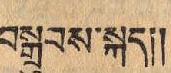བསྒྲུབས་སྐད།།
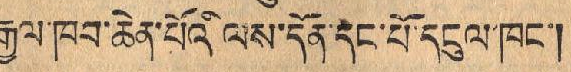རྒྱལ་ཁབ་ཆེན་པོའི་ལས་དོན་དང་པོ་དངུལ་ཁང་།
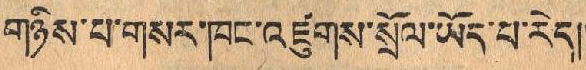གཉིས་པ་གསར་ཁང་འཛུགས་སྲོལ་ཡོད་པ་རེད།།
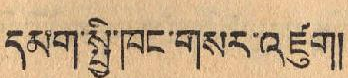དམག་སྤྱི་ཁང་གསར་འཛུག།
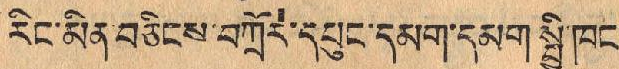རིང་མིན་བཅིངས་བཀྲོལ་དཔུང་དམག་དམག སྤྱི་ཁང་
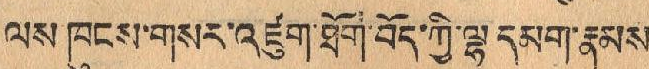ལས ཁུངས་གསར་འཛུག་ཐོག་བོད་ཀྱི་ལྷ་དམག་རྣམས་
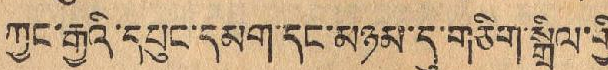ཀྱང་རྒྱའི་དཔུང་དམག་དང་མཉམ་དུ་གཅིག་སྒྲིལ་གྱི་
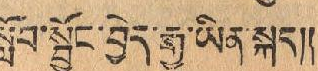སློབ་སྦྱོང་བྱེད་རྒྱུ་ཡིན་སྐད།།
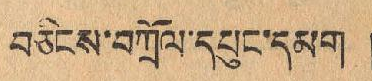བཅིངས་བཀྲོལ་དཔུང་དམག །
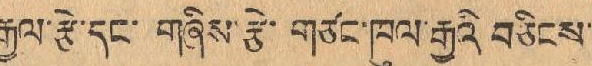རྒྱལ་རྩེ་དང་ གཞིས་རྩེ་ གཙང་ཁུལ་རྒྱའི་བཅིངས་
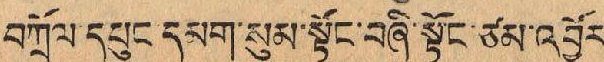བཀྲོལ དཔུང་དམག་སུམ་སྟོང་བཞི་སྟོང་ཙམ་འབྱོར་
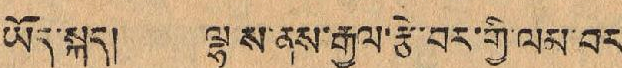ཡོད་སྐད། ལྷ ས་ནས་རྒྱལ་རྩེ་བར་གྱི་ལམ་བར་
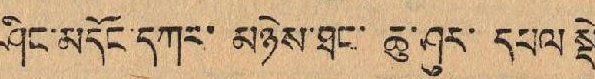ཤིང་མདོང་དཀར་ མཉེས་ཐང་ ཆུ་ཤུར་ དཔལ སྡེ་
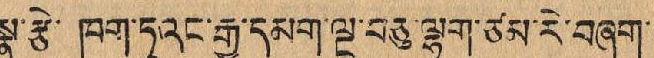སྣ་རྩེ་ ཁག་ཏུའང་རྒྱ་དམག་ལྔ་བཅུ་ལྷག་ཙམ་རེ་བཞག་
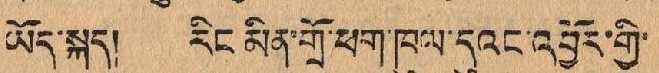ཡོད་སྐད། རིང་མིན་གྲོ་ཕན་ཁུལ་དུའང་འབྱོར་གྱི་
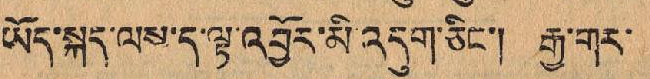ཡོད་སྐད་ལས་ད་ལྟ་འབྱོར་མི་འདུག་ཅིང་། རྒྱ་གར་
